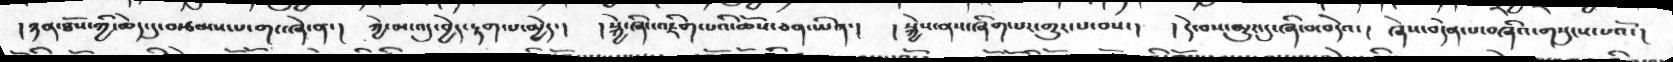།ཉན་ཐོས་ཀྱི་ཆེད་དུ་བརྩམས་པ་གང་ཞེ་ན་།  ཀྱེ་མ་འདུ་བྱེད་རྟག་པ་མྱེད་།   །སྐྱེ་ཞིང་འཇིག་པའི་ཆོས་ཅན་ཡིན་།  །སྐྱེས་ནས་ཞིག་པར་གྱུར་པ་བས་།  །དེ་བས་མྱུར་དུ་ཞི་བ་བདེའ་།  ཞེས་བདེན་པ་བཞིའ་གསུངས་པའོ་།
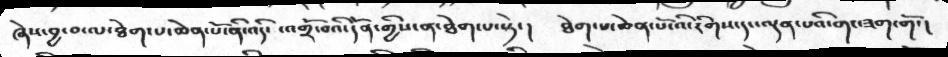ཞེས་བྱ་བ་ལ་ཐེག་པ་ཆེན་པོ་ནི་འདི་ ་འགྲོ་བའི་དོན་གྱིས་ན་ཐེག་པ་སྟེ་།  ཐེག་པ་ཆེན་པོ་འི་རིགས་དང་ལྡན་པའི་གང་ཟག་གོ་།
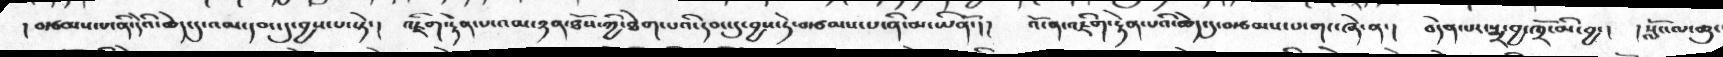།བརྩམས་པ་ནི་དེའི་ཆེད་དུ་འམ་དབང་དུ་བྱས་པ་སྟེ་།  འཇིག་རྟེན་པ་འམ་ཉན་ཐོས་ཀྱི་ཐེག་པའི་དབང་དུ་བྱས་དེ་བརྩམས་པ་ནི་མ་ཡིནོ་།།  འོ་ན་འཇིག་རྟེན་པའི་ཆེད་དུ་བརྩམས་པ་གང་ཞེ་ན་།  བདེན་པར་སྨྲ་བྱ་ཁྲོ་མི་བྱ་།  །སློང་ལ་ཆུ་
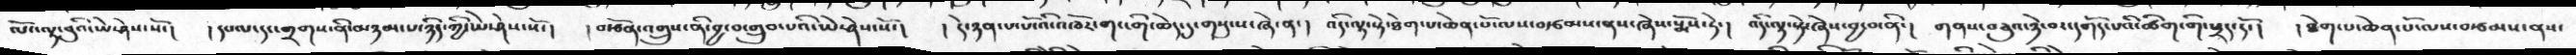ལོང་ལྟ་བུའི་ཡེ་ཤེས་སོ་།  །དཔལ་དང་གྲགས་ནི་མཉམ་པ་ཉིད་ཀྱི་ཡེ་ཤེས་སོ་།   ། བརྩོན་འགྲུས་ནི་བྱ་བ་གྲུབ་པའི་ཡེ་ཤེས་སོ་།  ། དེ་ཉན་པ་པོ་འིའཁོར་གང་གི་ཆེད་དུ་གསུངས་ཞེ་ན་། འདི་ལྟ་སྟེ་ཐེག་པ་ཆེན་པོ་ལས་བརྩམས་ནས་ཞེས་སྨོས་ཏེ་།  འདི་ལྟ་སྟེ་ཞེས་བྱ་བ་ནི་།   གནས་བཅུའ་ཉེ་བར་དགོད་པའི་ཚིག་གི་ཕྲད་དོ་།  ། ཐེག་པ་ཆེན་པོ་ལས་བརྩམས་ནས་
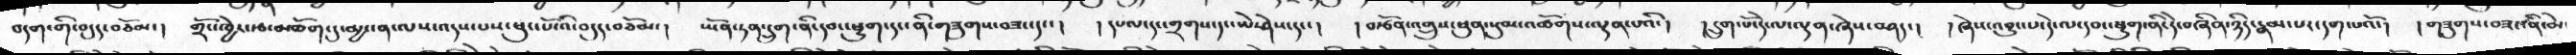བདག་གི་བདུད་་བཅོམ་།  གྲོང་ཁྱེར་རྩ་མཆོག་དུ་མྱ་ངན་ལས་འདས་པས་ཕུང་པོ་འི་བདུད་བཅོམ་།  ཡོན་ཏན་དྲུག་ནི་དབང་ཕྱུག་དང་ནི་གཟུགས་བཟང་དང་།  །དཔལ་དང་གྲགས་དང་ཡེ་ཤེས་དང་།  །བརྩོན་འགྲུས་ཕུན་སུམ་འཚོགས་ལྡན་པའི་།  །དྲུག་པོ་དེ་ལ་ལྡན་ཞེས་བཤད་།  །ཞེས་འབྱུང་པ་དེ་ལ་དབང་ཕྱུག་ནི་དེ་བཞིན་ཉིད་རྣམ་པར་དག་པའོ་།  །གཟུགས་བཟང་ནི་མེ་
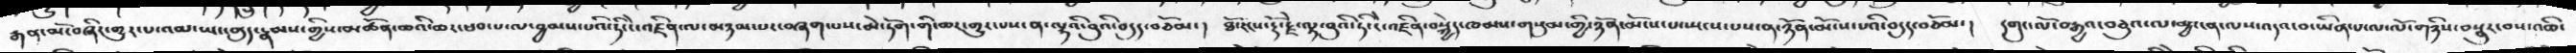རྒན་མོ་བཞིར་གྱུར་པ་འམ་ཡང་བདུད་རྣམས་གྱིས་མཚོན་ཆའི་ཆར་ཕབ་པ་ལ་བྱམས་པའི་ཏི་ངེ་འཛིན་ལ་མཉམ་པར་བཞག་པས་མེ་ཏོག་གི་ཆར་གྱུར་པས་ན་ལྷའི་བུའི་བདུད་བཅོམ་།  ཐོ་རངས་རྡོ་རྗེ་ལྟ་བུའི་ཏི་ངེ་འཛིན་བསྐྱེད་ཁམས་གསུམ་གྱི་ཉོན་མོངས་པ་སྤངས་པས་ན་ཉོན་མོངས་པའི་བདུད་བཅོམ་།   དགུང་ལོ་བརྒྱའ་བཅུའ་ལ་མྱ་ངན་ལས་འདའ་བ་ཡིན་པ་ལ་ལོ་གཉིས་བསྣུར་བས་འཆི་
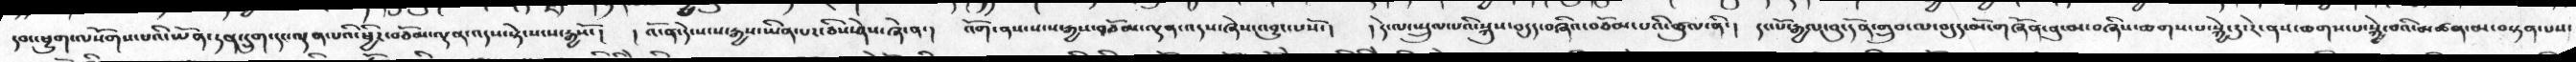དབང་ཕྱུག་ལསོགས་པའི་ཡོན་ཏན་དྲུག་དང་་ལྡན་པའི་ཕྱིར་བཅོམ་ལྡན་འདས་སྟེ་སངས་རྒྱསོ་།  །འོ་ན་དེ་སངས་རྒྱས་ཡིན་པར་ཅིས་ཤེས་ཞེ་ན་།  འོག་ནས་སངས་རྒྱས་བཅོམ་ལྡན་འདས་ཞེས་འབྱུང་པསོ་།  །དེ་ལ་སྤྲུལ་པའི་སྐུས་བདུད་བཞིའ་བཅོམ་པའི་ཚུལ་ནི་།  དང་པོ་རྒྱལ་བུ་དོན་གྲུབ་ལ་བདུད་མོ་གཞོན་ནུ་མ་བཞིས་ཆགས་པ་སྐྱེ་དུ་རེ་ནས་ཆགས་པ་སྐྱེ་བའི་མཚན་མ་བསྟན་པས་
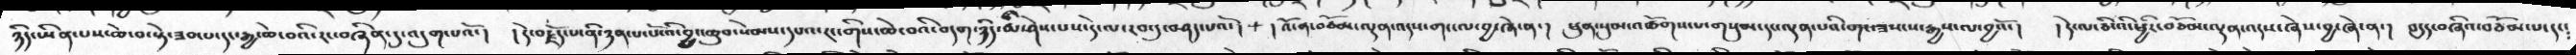ཉིད་ཡིན་པས་ཆེ་བ་སྟེ་ཟབ་པ་དང་རྒྱ་ཆེ་བའི་རང་བཞིན་དུ་འདུག་པའོ་།  །དེ་བརྗོད་པ་ནི་ཉན་པ་པོ་འི་བྱང་ཆུབ་སེམས་དཔའ་རང་གིས་ཆེ་བའི་བདག་ཉིད་མི་ཤེས་པས་དེ་ལ་རབ་དུ་བཤད་པའོ་།  །འོ་ན་བཅོམ་ལྡན་འདས་གང་ལ་བྱ་ཞེ་ན་།  ཕུན་སུམ་འཚོགས་པ་གསུམ་དང་ལྡན་པའི་གང་ཟསངས་རྒྱས་ལ་བྱའོ་།  །དེ་ལ་ཅི་འི་ཕྱིར་བཅོམ་ལྡན་འདས་ཞེས་བྱ་ཞེ་ན་།  བདུད་བཞིའ་བཅོམ་པ་དང༴
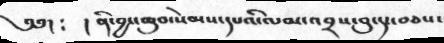༄༅། ༴   ། ནི་བྱང་ཆུབ་སེམས་དཔའི་ལམ་འབྲས་བུ་དང་བཅས་
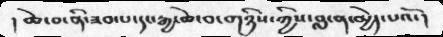། ཆེ་བ་ནི་ཟབ་པ་དང་རྒྱ་ཆེ་བ་གཉིས་ཀྱིས་བླ་ན་མྱེད་པའོ་།
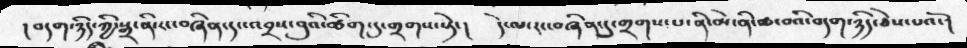།བདག་ཉིད་ཀྱི་སྒྲ་ནི་བཞིན་དང་འབྲས་བུའི་ཚིག་དུ་གྲགས་སྟེ་།   དེ་ལ་རང་བཞིན་དུ་གྲགས་པ་ནི་མེ་ནི་ཆ་བའི་བདག་ཉིད་ཅེས་པའོ་།་
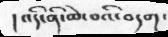།འདི་ནི་ཆེ་བའི་བདག་
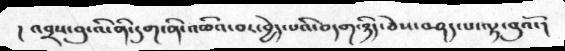།འབྲས་བུ་འི་ནི་དུག་ནི་འཆིའ་བར་བྱེད་པའི་བདག་ཉིད་ཅེས་བཤད་པ་ལྟ་བུའོ་།
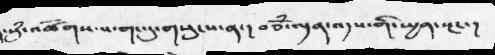་སུཾ་འཚོགས་པ་གང་དུ་གསུངས་ན་། བཅོཾ་ལྡན་འདས་གི་སྤྱན་སྔར་།
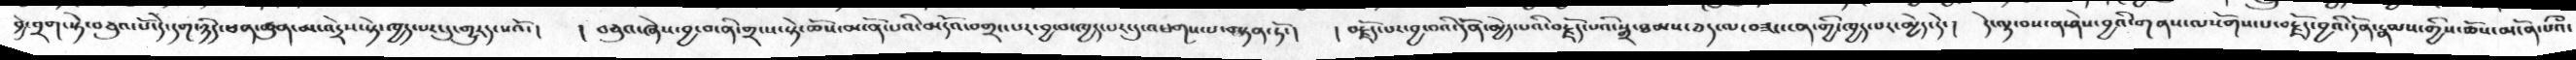བྱེ་བྲག་སྟེ་བཅུའ་པོ་དེ་དག་ཉིད་ཕན་ཚུན་མ་འདྲེས་སྟེ་ཁྱད་པར་དུ་གྱུརད་པའོ་།   །བཅུའ་ཞེས་བྱ་བ་ནི་གྲངས་སྟེ་ཆོས་མངོན་པའི་མདོའ་བགྲང་པར་བྱ་བ་ཁྱད་པར་དུ་འཕགས་པ་བསྟན་ཏོ་།   ། བརྗོད་པར་བྱ་བའི་དོན་མྱེད་པའི་བརྗོད་པའི་སྒྲ་ཐམས་ཅད་མ་བཟང་ངན་གྱི་ཁྱད་པར་མྱེད་དེ་།   དེ་ལྟ་བས་ན་ཤེས་བྱའི་གནས་ལསོགས་པ་བརྗོད་བྱའི་དོན་རྣམས་གྱིས་ཆོས་མངོན་པའི་
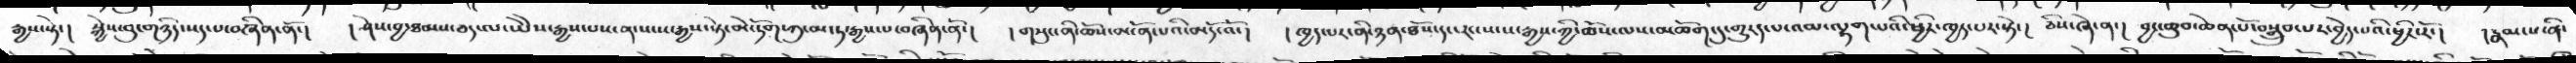རྒྱས་སྟེ་།  སྐྱེས་བུ་གཉིད་སད་པ་བཞིན་ནོ་།  །ཤེས་བྱ་ཐམས་ཅད་ལ་་ཡཻས་རྒྱས་པས་ན་སངས་རྒྱས་སྟེ་མེ་ཏོག་ཀུ་མ་ཏ་རྒྱས་པ་བཞིན་ནོ་།  །གསུང་ནི་ཆོས་མངོན་པའི་མདོ་འོ་།  །ཁྱད་པར་ནི་ཉན་ཐོས་དང་རང་སངས་རྒྱས་ཀྱི་ཆོས་ལས་མཆོག་དུ་གྱུར་པ་འམ་ལྷག་པའི་ཕྱིར་ཁྱད་པར་སྟེ་།  ཅེས་ཞེ་ན་།  བྱང་ཆུབ་ཆེན་པོ་བསྒྲུབ་པར་བྱེད་པའི་ཕྱིར་རོ་།  །རྣམ་པ་ནི་
